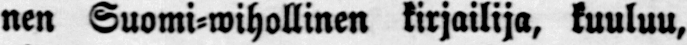nen Suomi-wihollinen kirjailija, kuuluu,
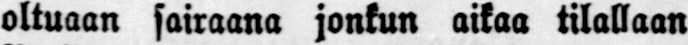oltuaan sairaana jonkun aikaa tilallaan
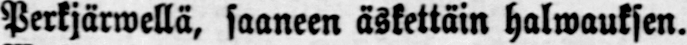Perkjärwellä, saaneen äskettäin halwauksen.
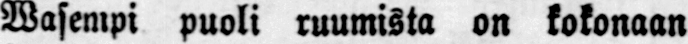Wasempi puoli ruumista on kokonaan
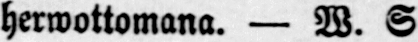herwottomana. — W. S.
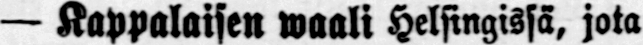— Kappalaisen waali Helsingissä, jota
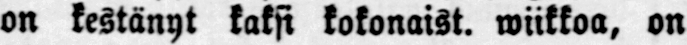on kestänyt kaksi kokonaist. wiikkoa, on
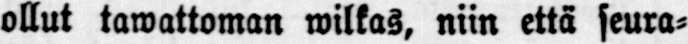ollut tawattoman wilkas, niin että seura-
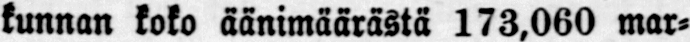kunnan koko äänimäärästä 173,060 mar-
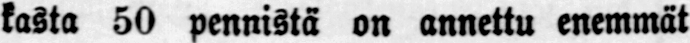kasta 50 pennistä on annettu enemmät
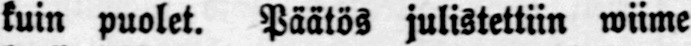kuin puolet. Päätös julistettiin wiime
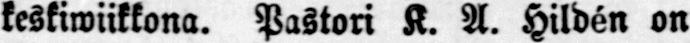keskiwiikkona. Pastori K. A. Hildén on
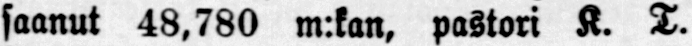saanut 48,780 m:kan, pastori K. T.
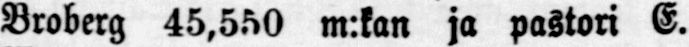Broberg 45,550 m:kan ja pastori E.
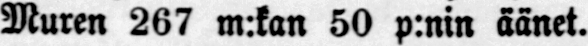Muren 267 m:kan 50 p:nin äänet.
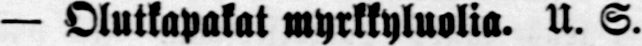— Olutkapakat myrkkyluolia. U. S.
